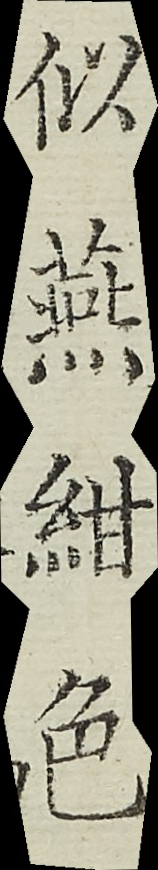似燕紺色
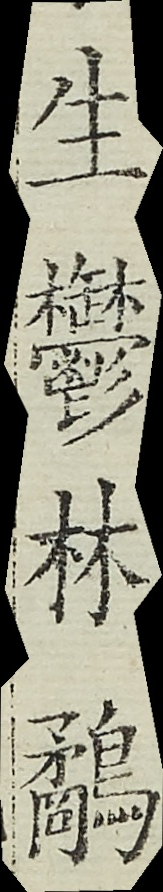生鬱林鷸
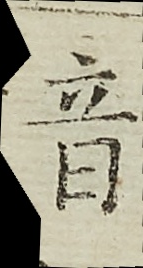音
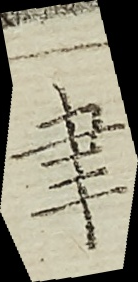聿
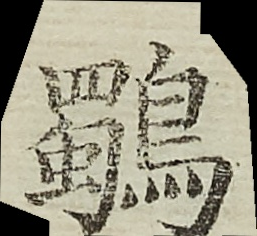鸀
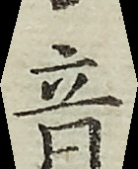音
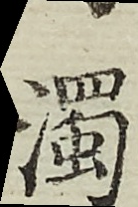濁
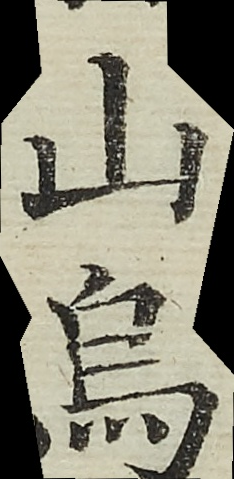山烏
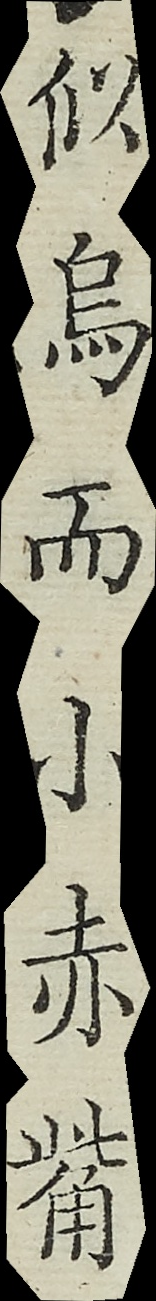似烏而小赤觜
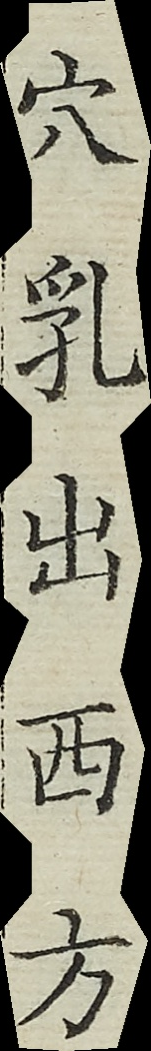穴乳出西方
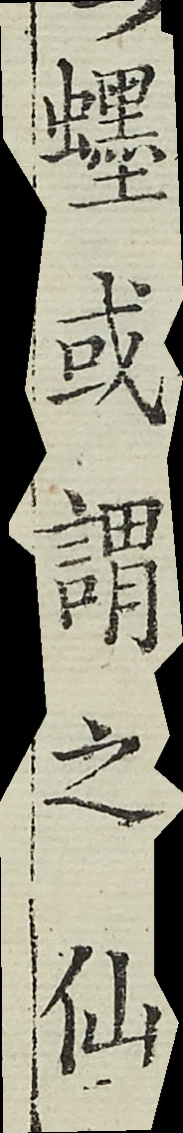䘃或謂之仙
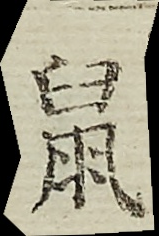鼠
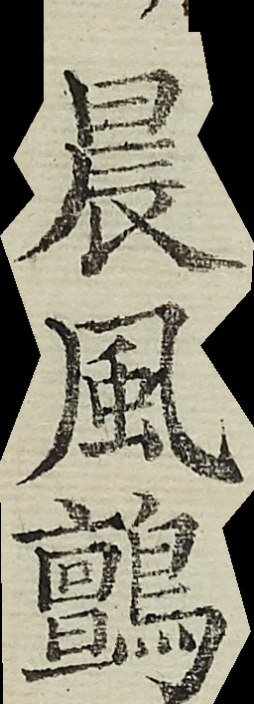晨風鸇
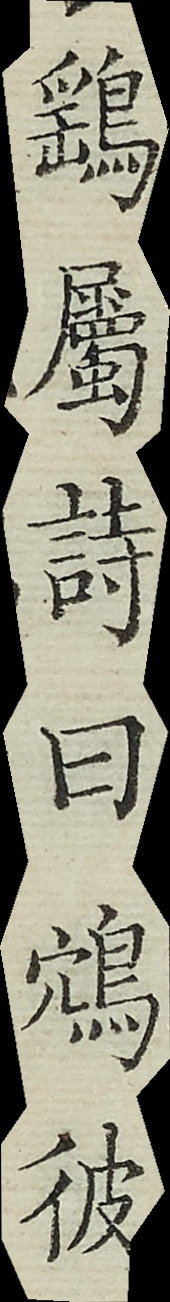鷄屬詩曰鴪彼
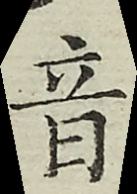音
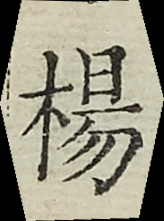楊
